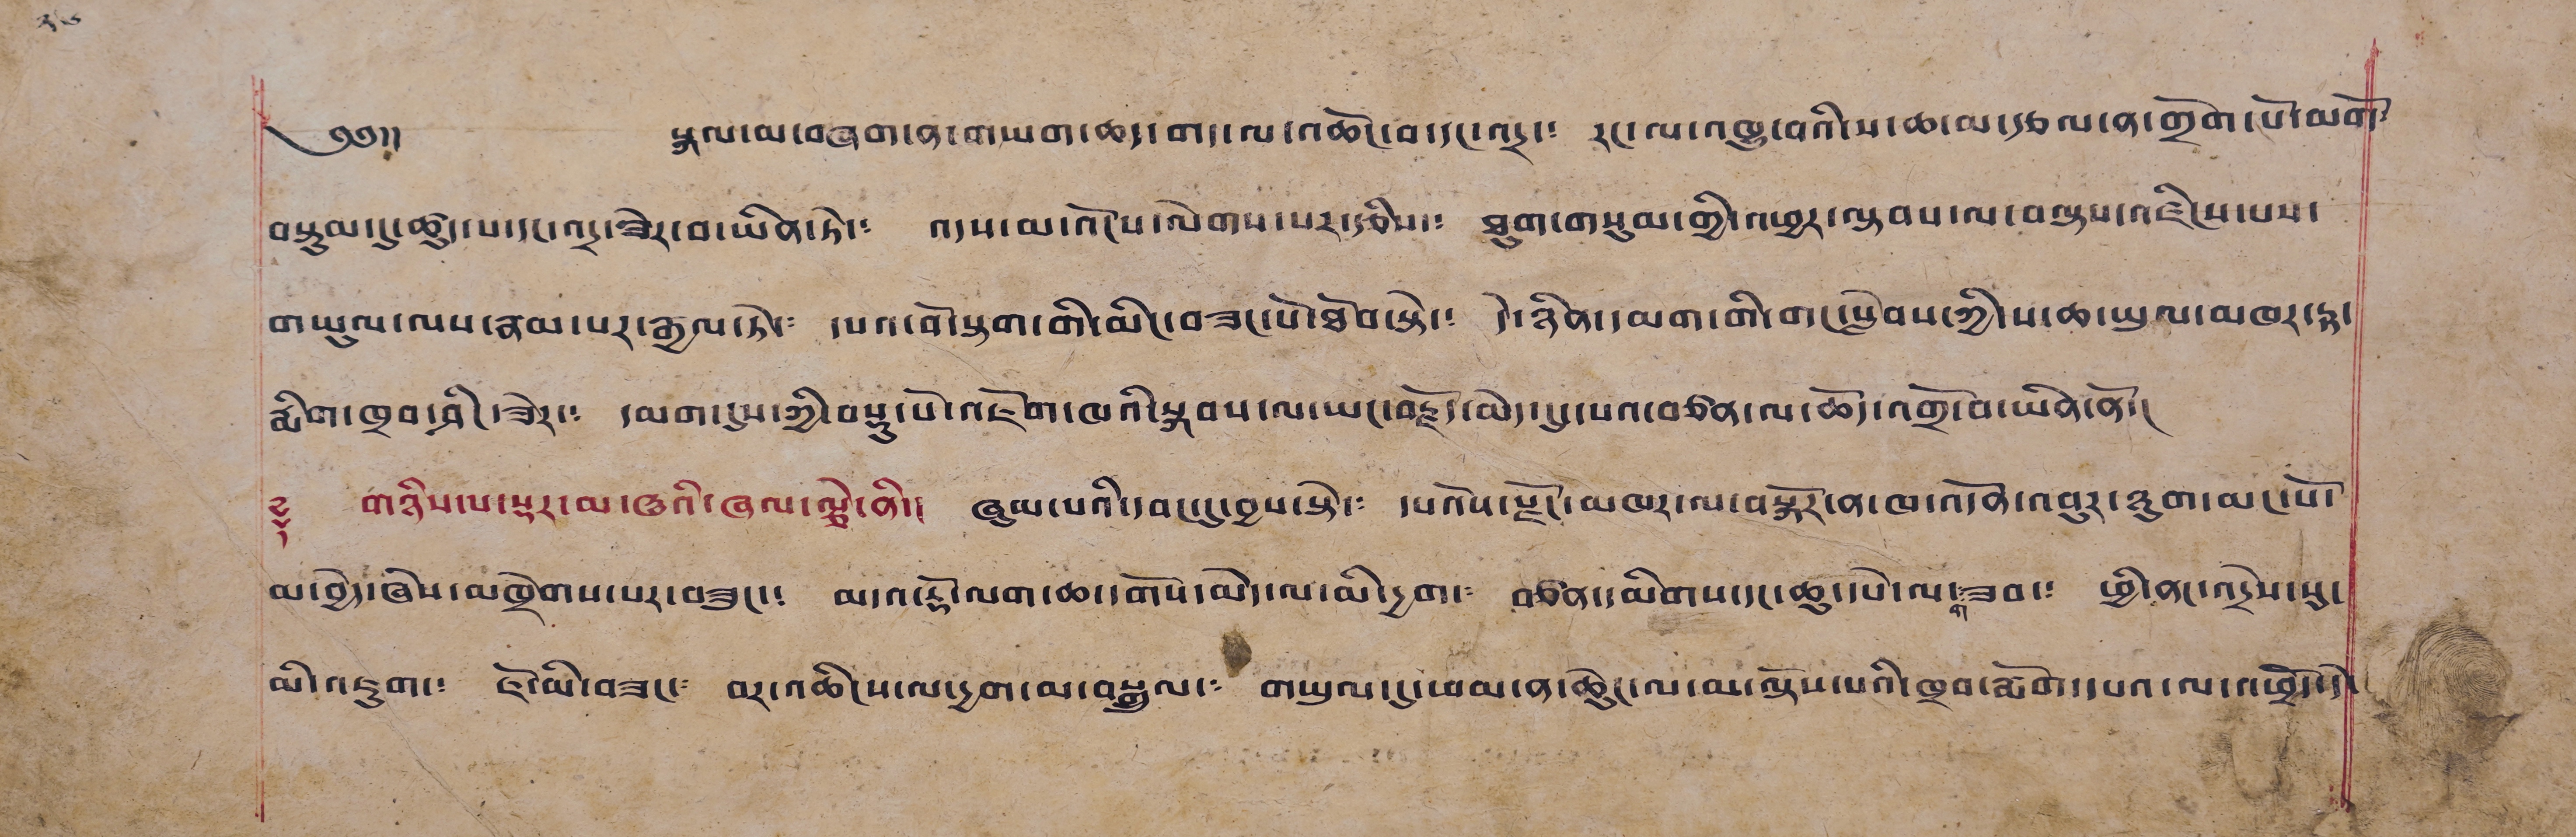༢༦
༄༅།། སྐལ་མ་བཞག་ན་གཡག་ཆད་གད་ལ་འཆོང་བ་དང་འདྲ་༴ རང་ལ་འཁྱུ་བའི་ས་ཆ་མ་རྩལ་ན་གྲོག་པོ་མགོ༴
བསྡུམ་དུ་ཚུད་པ་དང་འདྲ་ཟེར་བ་ཡིན་ཏེ་༴ འདས་མ་འོངས་ལེགས་པར་རྩིས་༴ ཐུག་གསུམ་གྱི་འཕྱར་ལྟབས་ལ་བལྟས་འཛིངས་པས་
གཡུལ་ལས་རམ་པར་རྒྱལ་ཏེ་༴ དཔའ་བོ་སྟག་གི་མིང་བཟང་པོ་ཐོབ་སྟེ་༴ དེ་ཉིན་དམག་གི་གང་སློབས་ཀྱི་ས་ཆ་ཡུལ་མཁར་རྟ་
རྨིག་ཁྲབ་ཤིང་ཟེར་༴ དམག་དུས་ཀྱི་བསྡུ་པོ་འཇོག་ཁའི་སྐབས་ལ་ཡང་བརྗོད་མེད་དུ་དཔའ་བཙན་ལ་ཆོད་འགྲོ་བ་ཡིན་ནོ་།
༈ གཉིས་པ་སྡར་མ་ཝའི་ཞལ་ལྕེ་ནི་། ཞུམ་པའི་དབང་དུ་བྱས་སྟེ་༴ དཔའོས་རྫོང་མཁར་ལ་བསྐོར་ན་ཁ་འདོན་འབུར་ཉུག་མང་པོ་
མ་བྱེད་ཞེས་མཁྲེགས་པར་བཟུང་༴ མདའ་རྡོ་ལག་ཆ་དགོས་མེད་ལ་མི་དྱག་༴ བཙན་དམིགས་དང་ཆུ་དཔེ་ལ་གཟབ་༴ ཕྱི་ནང་འདྲེས་སུ་
མི་འཇུག་༴ ཇོ་མི་བཟང་༴ བར་འཆིངས་ལ་དྱག་མ་བསྒྲུལ་༴ གཡུལ་དུ་ཕམ་ན་ཆེུང་ལ་མ་ལྟོས་པའི་ཁྲབ་རྨོག་དཔའ་ལ་འཕྲོད་དེ་
